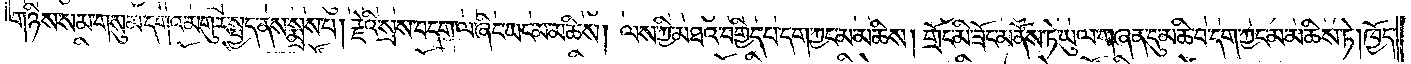གཉིས་སམ་གསུམ་དགའ་མགུར་སྤྱད་ནས་སྨྲས་པ། རྗེའི་སྲས་བདག་ལ་ཞིང་ཡང་མ་མཆིས། ལས་ཀྱི་མཐའ་བགྱིད་པ་དག་ཀྱང་མ་མཆིས། གྲོང་མི་ཟོང་མ་ནོས་ཏེ་ཡུལ་གཞན་དུ་མཆི་བ་དག་ཀྱང་མ་མཆིས་ཏེ། ཁྱོད་
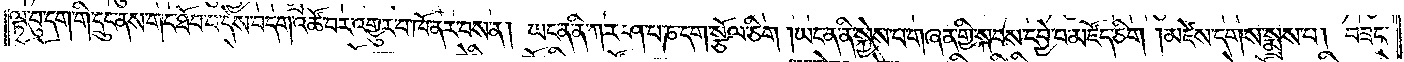ལྟ་བུ་དག་གི་དྲུང་ནས་གང་ཐོབ་བ་དེས་བདག་འཚོ་བར་འགྱུར་བ་ཁོ་ནར་བས་ན། ཡང་ན་ནི་ཀར་ཤ་པ་ཎ་དག་སྩོལ་ཅིག །ཡང་ན་ནི་སྐྱེས་པ་གཞན་གྱི་སྐབས་དབྱེ་བ་མཛོད་ཅིག །མཛེས་དགས་སྨྲས་པ། བཟང་
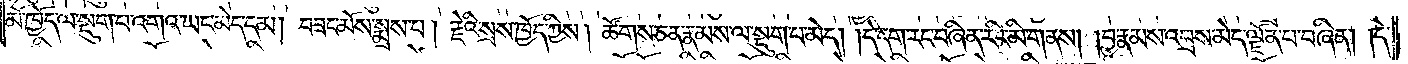མོ་ཁྱོད་ལ་སྡུག་པ་འགའ་ཡང་མེད་དམ། བཟང་མོས་སྨྲས་པ། རྗེའི་སྲས་ཁྱོད་ཀྱིས། ཚོགས་ཅན་རྣམས་ལ་སྡུག་པ་མེད། དེ་དག་རང་བཞིན་རིང་མི་གནས། བྱ་རྣམས་འབྲས་མེད་ལྗོན་པ་བཞིན། །དེ་
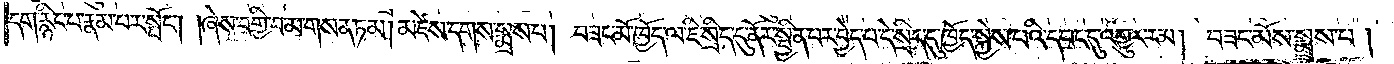དག་རྙིང་པ་རྣམ་པར་སྤོང༌། །ཞེས་བགྱི་བ་མ་གསན་ཏམ། མཛེས་དགས་སྨྲས་པ། བཟང་མོ་ཁྱོད་ལ་ཇི་སྲིད་དུ་ནོར་སྦྱིན་པར་བྱེད་པ་དེ་སྲིད་དུ་ཁྱོད་སྐྱེས་པའི་དབང་དུ་འགྱུར་རམ། བཟང་མོ་སྨྲས་པ།
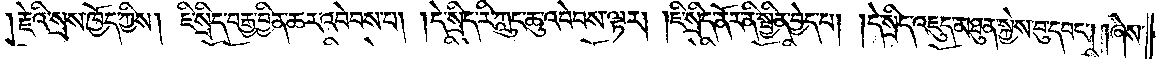རྗེའི་སྲས་ཁྱོད་ཀྱིས། ཇི་སྲིད་བརྒྱ་བྱིན་ཆར་འབེབས་པ། །དེ་སྲིད་རི་ཀླུང་ཆུ་འབེབས་ལྟར། །ཇི་སྲིད་ནོར་ནི་སྦྱིན་བྱེད་པ། །དེ་སྲིད་འཇུད་མཐུན་སྐྱེས་བུ་དབང༌། །ཞེས་
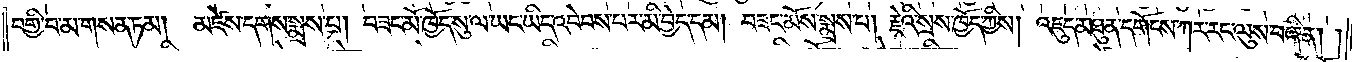བགྱི་བ་མ་གསན་ཏམ། མཛེས་དགས་སྨྲས་པ། བཟང་མོ་ཁྱོད་སུ་ལ་ཡང་ཡིད་འབེབས་པར་མི་བྱེད་དམ། བཟང་མོས་སྨྲས་པ། རྗེའི་སྲས་ཁྱོད་ཀྱིས། འཇུད་མཐུན་དགོངས་ཀར་རང་ལུས་བཞིན། །
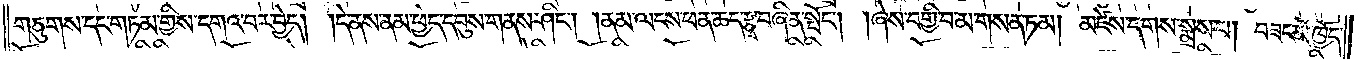གཅུགས་དང་གཏམ་གྱིས་དགའ་བར་བྱེད། །དེ་ནས་ནམ་ཕྱེད་དབུས་གནས་ཤིང༌། །ནམ་ལངས་ཕན་ཆད་རྩྭ་བཞིན་སྤོང༌། །ཞེས་བགྱི་བ་མ་གསན་ཏམ། མཛེས་དགས་སྨྲས་པ། བཟང་མོ་ཁྱོད་
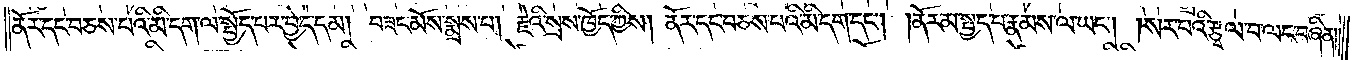ནོར་དང་བཅས་པའི་མི་དག་ལ་སྤྱོད་པར་བྱེད་དམ། བཟང་མོས་སྨྲས་པ། རྗེའི་སྲས་ཁྱོད་ཀྱིས། ནོར་དང་བཅས་པའི་མི་དག་དང༌། །ནོར་མ་སྤྱད་པ་རྣམས་ལ་ཡང༌། །སར་པའི་རྩྭ་ལ་བ་ལང་བཞིན༎
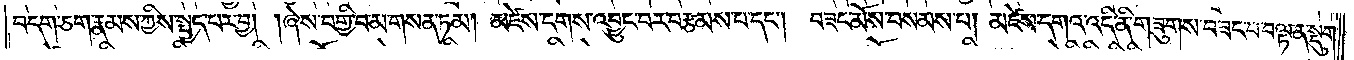བདག་ཅག་རྣམས་ཀྱིས་སྤྱད་པར་བྱ། །ཞེས་བགྱི་བ་མ་གསན་ཏམ། མཛེས་དགས་འབྱུང་བར་བརྩམས་པ་དང༌། བཟང་མོས་བསམས་པ། མཛེས་དགའ་འདི་ནི་གཟུགས་བཟང་བ་བལྟ་ན་སྡུག་
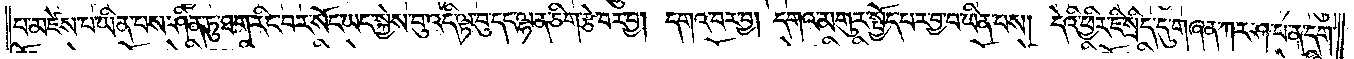པ་མཛེས་པ་ཡིན་པས་ཤིན་ཏུ་ཐག་རིང་བར་སོང་ཡང་སྐྱེས་བུ་འདི་ལྟ་བུ་འདི་ལྟ་བུ་དང་ལྷན་ཅིག་རྩེ་བར་བྱ། དགའ་བར་བྱ། དགའ་མགུར་སྤྱོད་པར་བྱ་བ་ཡིན་པས། དེའི་ཕྱིར་ཇི་སྲིད་དུ་གཞན་ཀར་ཤ་པ་ན་དག་
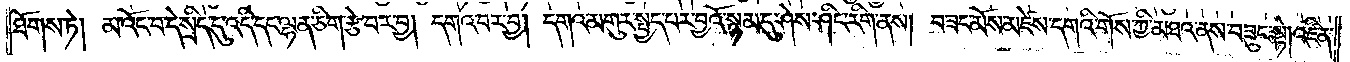ཐོགས་ཏེ། མ་འོང་བ་དེ་སྲིད་དུ་འདི་དང་ལྷན་ཅིག་རྩེ་བར་བྱ། དགའ་བར་བྱ། དགའ་མགུར་སྤྱད་པར་བྱའོ་སྙམ་དུ་ཤེས་ཤིང་རིག་ནས། བཟང་མོས་མཛེས་དགའི་གོས་ཀྱི་མཐའ་ནས་བཟུང་སྟེ། འཛིན་
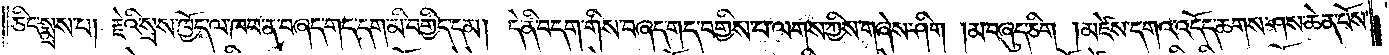ཅིང་སྨྲས་པ། རྗེའི་སྲས་ཁྱོད་ལ་ཁབ་ན་བཞད་གད་དག་མི་བགྱིད་དམ། དེ་ནི་བདག་གིས་བཞད་གད་བགྱིས་པ་ལགས་ཀྱིས་བཞེས་ཤིག །མ་བཞུད་ཅིག །མཛེས་དགའ་འདོད་ཆགས་ཤས་ཆེན་པོས་
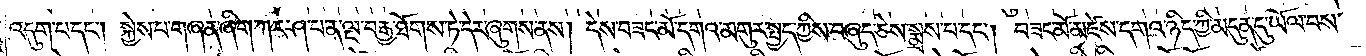འདུག་པ་དང༌། སྐྱེས་པ་གཞན་ཞིག་ཀར་ཤ་པ་ན་ལྔ་བརྒྱ་ཐོགས་ཏེ་དེར་ཞུགས་ནས། དེས་བཟང་མོ་དགའ་མགུར་སྤྱད་ཀྱིས་བཞུད་ཅེས་སྨྲས་པ་དང༌། བཟང་མོ་མཛེས་དགའ་ཉིད་ཀྱི་མདུན་དུ་ཡོལ་བས་
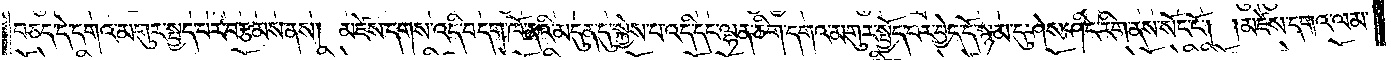བཅད་དེ་དགའ་མགུར་སྤྱད་པར་བརྩམས་ནས། མཛེས་དགས་འདི་བདག་ཁོ་ནའི་མདུན་དུ་སྐྱེས་པ་འདི་དང་ལྷན་ཅིག་དགའ་མགུར་སྤྱོད་པར་བྱེད་དོ་སྙམ་དུ་ཤེས་ཤིང་རིག་ནས་སོང་ངོ༌། །མཛེས་དགའ་ལམ་
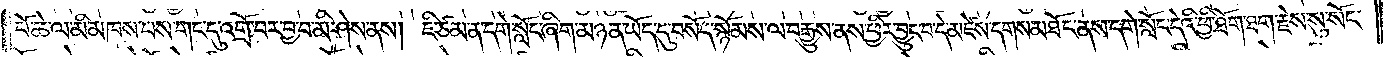པོ་ཆེ་ལ་མི་མཁས་པས་གང་དུ་འགྲོ་བར་བྱ་བ་མི་ཤེས་ནས། ཇི་ཙམ་ན་དགེ་སློང་ཞིག་མཉན་ཡོད་དུ་བསོད་སྙོམས་ལ་བརྒྱུས་ནས་ཕྱིར་བྱུང་བ་དེ་མཛེས་དགས་མཐོང་ནས་དགེ་སློང་དེའི་ཕྱི་ཐོག་ཐག་རྗེས་སུ་སོང་
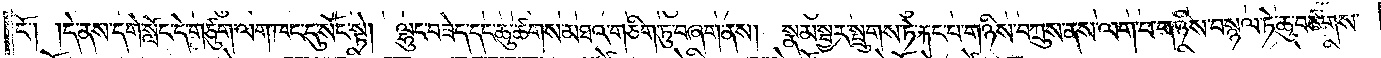ངོ༌། །དེ་ནས་དགེ་སློང་དེ་གཙུག་ལག་ཁང་དུ་སོང་སྟེ། ལྷུང་བཟེད་དང་ཆུ་ཚགས་མཐའ་གཅིག་ཏུ་བཞག་ནས། སྣམ་སྦྱར་སྤྲུགས་ཏེ་རྐང་པ་གཉིས་བཀྲུས་ནས་ལག་པ་གཉིས་བསྙལ་ཏེ་ཆུ་བཙགས་
